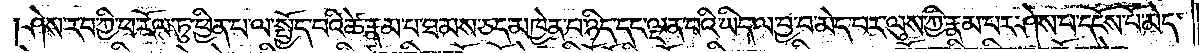ཤེས་རབ་ཀྱི་ཕ་རོལ་ཏུ་ཕྱིན་པ་ལ་སྤྱོད་པའི་ཚེ་རྣམ་པ་ཐམས་ཅད་མཁྱེན་པ་ཉིད་དང་ལྡན་པའི་ཡིད་ལ་བྱ་བ་མེད་པར་ལུས་ཀྱི་རྣམ་པར་ཤེས་པ་དངོས་པོ་མེད་
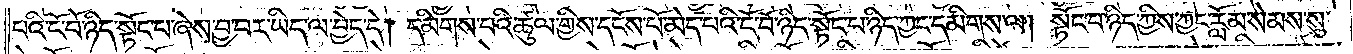པའི་ངོ་བོ་ཉིད་སྟོང་པ་ཞེས་བྱ་བར་ཡིད་ལ་བྱེད་དེ། དམིགས་པའི་ཚུལ་གྱིས་དངོས་པོ་མེད་པའི་ངོ་བོ་ཉིད་སྟོང་པ་ཉིད་ཀྱང་དམིགས་ལ། སྟོང་པ་ཉིད་ཀྱིས་ཀྱང་རློམ་སེམས་སུ་
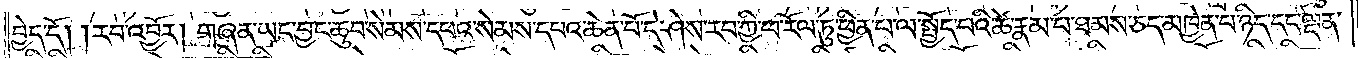བྱེད་དོ། །རབ་འབྱོར། གཞན་ཡང་བྱང་ཆུབ་སེམས་དཔའ་སེམས་དཔའ་ཆེན་པོ་དེ་ཤེས་རབ་ཀྱི་ཕ་རོལ་ཏུ་ཕྱིན་པ་ལ་སྤྱོད་པའི་ཚེ་རྣམ་པ་ཐམས་ཅད་མཁྱེན་པ་ཉིད་དང་ལྡན་
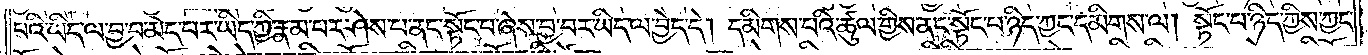པའི་ཡིད་ལ་བྱ་བ་མེད་པར་ཡིད་ཀྱི་རྣམ་པར་ཤེས་པ་ནང་སྟོང་པ་ཞེས་བྱ་བར་ཡིད་ལ་བྱེད་དེ། དམིགས་པའི་ཚུལ་གྱིས་ནང་སྟོང་པ་ཉིད་ཀྱང་དམིགས་ལ། སྟོང་པ་ཉིད་ཀྱིས་ཀྱང་
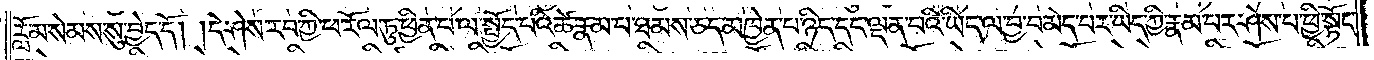རློམ་སེམས་སུ་བྱེད་དོ། །དེ་ཤེས་རབ་ཀྱི་ཕ་རོལ་ཏུ་ཕྱིན་པ་ལ་སྤྱོད་པའི་ཚེ་རྣམ་པ་ཐམས་ཅད་མཁྱེན་པ་ཉིད་དང་ལྡན་པའི་ཡིད་ལ་བྱ་བ་མེད་པར་ཡིད་ཀྱི་རྣམ་པར་ཤེས་པ་ཕྱི་སྟོང་
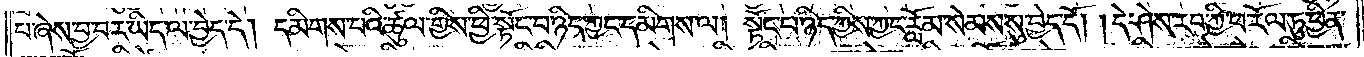པ་ཞེས་བྱ་བར་ཡིད་ལ་བྱེད་དེ། དམིགས་པའི་ཚུལ་གྱིས་ཕྱི་སྟོང་པ་ཉིད་ཀྱང་དམིགས་ལ། སྟོང་པ་ཉིད་ཀྱིས་ཀྱང་རློམ་སེམས་སུ་བྱེད་དོ། །དེ་ཤེས་རབ་ཀྱི་ཕ་རོལ་ཏུ་ཕྱིན་
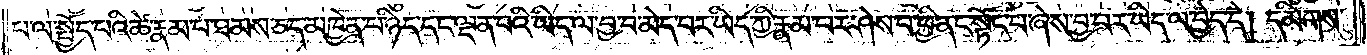པ་ལ་སྤྱོད་པའི་ཚེ་རྣམ་པ་ཐམས་ཅད་མཁྱེན་པ་ཉིད་དང་ལྡན་པའི་ཡིད་ལ་བྱ་བ་མེད་པར་ཡིད་ཀྱི་རྣམ་པར་ཤེས་པ་ཕྱི་ནང་སྟོང་པ་ཞེས་བྱ་བར་ཡིད་ལ་བྱེད་དེ། དམིགས་
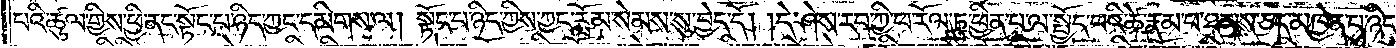པའི་ཚུལ་གྱིས་ཕྱི་ནང་སྟོང་པ་ཉིད་ཀྱང་དམིགས་ལ། སྟོང་པ་ཉིད་ཀྱིས་ཀྱང་རློམ་སེམས་སུ་བྱེད་དོ། །དེ་ཤེས་རབ་ཀྱི་ཕ་རོལ་ཏུ་ཕྱིན་པ་ལ་སྤྱོད་པའི་ཚེ་རྣམ་པ་ཐམས་ཅད་མཁྱེན་པ་ཉིད་
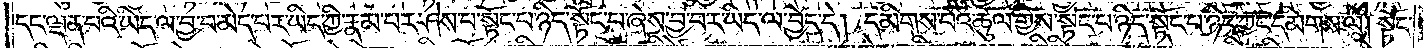དང་ལྡན་པའི་ཡིད་ལ་བྱ་བ་མེད་པར་ཡིད་ཀྱི་རྣམ་པར་ཤེས་པ་སྟོང་པ་ཉིད་སྟོང་པ་ཞེས་བྱ་བར་ཡིད་ལ་བྱེད་དེ། དམིགས་པའི་ཚུལ་གྱིས་སྟོང་པ་ཉིད་སྟོང་པ་ཉིད་ཀྱང་དམིགས་ལ། སྟོང་
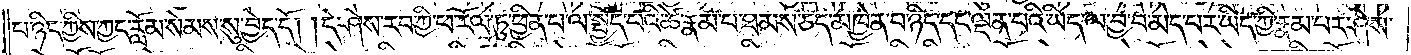པ་ཉིད་ཀྱིས་ཀྱང་རློམ་སེམས་སུ་བྱེད་དོ། །དེ་ཤེས་རབ་ཀྱི་ཕ་རོལ་ཏུ་ཕྱིན་པ་ལ་སྤྱོད་པའི་ཚེ་རྣམ་པ་ཐམས་ཅད་མཁྱེན་པ་ཉིད་དང་ལྡན་པའི་ཡིད་ལ་བྱ་བ་མེད་པར་ཡིད་ཀྱི་རྣམ་པར་ཤེས་
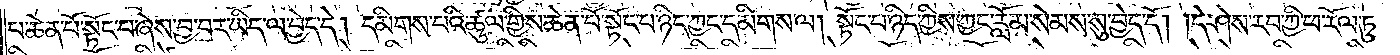པ་ཆེན་པོ་སྟོང་པ་ཞེས་བྱ་བར་ཡིད་ལ་བྱེད་དེ། དམིགས་པའི་ཚུལ་གྱིས་ཆེན་པོ་སྟོང་པ་ཉིད་ཀྱང་དམིགས་ལ། སྟོང་པ་ཉིད་ཀྱིས་ཀྱང་རློམ་སེམས་སུ་བྱེད་དོ། །དེ་ཤེས་རབ་ཀྱི་ཕ་རོལ་ཏུ་
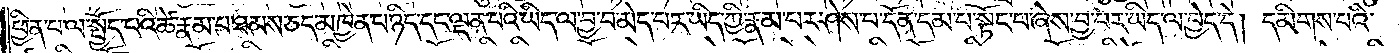ཕྱིན་པ་ལ་སྤྱོད་པའི་ཚེ་རྣམ་པ་ཐམས་ཅད་མཁྱེན་པ་ཉིད་དང་ལྡན་པའི་ཡིད་ལ་བྱ་བ་མེད་པར་ཡིད་ཀྱི་རྣམ་པར་ཤེས་པ་དོན་དམ་པ་སྟོང་པ་ཞེས་བྱ་བར་ཡིད་ལ་བྱེད་དེ། དམིགས་པའི་
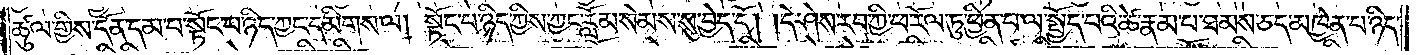ཚུལ་གྱིས་དོན་དམ་པ་སྟོང་པ་ཉིད་ཀྱང་དམིགས་ལ། སྟོང་པ་ཉིད་ཀྱིས་ཀྱང་རློམ་སེམས་སུ་བྱེད་དོ། །དེ་ཤེས་རབ་ཀྱི་ཕ་རོལ་ཏུ་ཕྱིན་པ་ལ་སྤྱོད་པའི་ཚེ་རྣམ་པ་ཐམས་ཅད་མཁྱེན་པ་ཉིད་
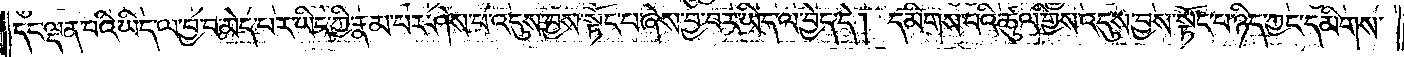དང་ལྡན་པའི་ཡིད་ལ་བྱ་བ་མེད་པར་ཡིད་ཀྱི་རྣམ་པར་ཤེས་པ་འདུས་བྱས་སྟོང་པ་ཞེས་བྱ་བར་ཡིད་ལ་བྱེད་དེ། དམིགས་པའི་ཚུལ་གྱིས་འདུས་བྱས་སྟོང་པ་ཉིད་ཀྱང་དམིགས་
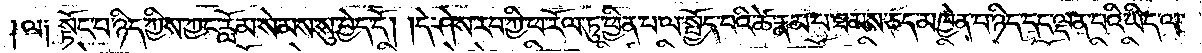ལ༑ སྟོང་པ་ཉིད་ཀྱིས་ཀྱང་རློམ་སེམས་སུ་བྱེད་དོ། །དེ་ཤེས་རབ་ཀྱི་ཕ་རོལ་ཏུ་ཕྱིན་པ་ལ་སྤྱོད་པའི་ཚེ་རྣམ་པ་ཐམས་ཅད་མཁྱེན་པ་ཉིད་དང་ལྡན་པའི་ཡིད་ལ་
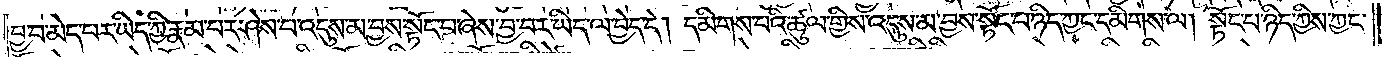བྱ་བ་མེད་པར་ཡིད་ཀྱི་རྣམ་པར་ཤེས་པ་འདུས་མ་བྱས་སྟོང་པ་ཞེས་བྱ་བར་ཡིད་ལ་བྱེད་དེ། དམིགས་པའི་ཚུལ་གྱིས་འདུས་མ་བྱས་སྟོང་པ་ཉིད་ཀྱང་དམིགས་ལ། སྟོང་པ་ཉིད་ཀྱིས་ཀྱང་
